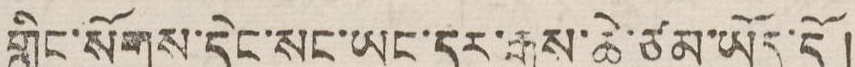གླིང་སོགས་དེང་སང་ཡང་དར་རྒྱས་ཆེ་ཙམ་ཡོད་དོ།
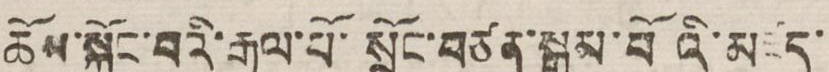ཆོས་སྐྱོང་བའི་རྒྱལ་པོ་སྲོང་བཙན་སྒམ་པོའི་མཛད་
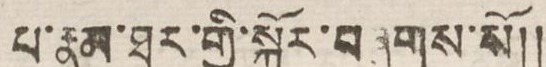པ་རྣམ་ཐར་གྱི་སྐོར་བཞུགས་སོ།།
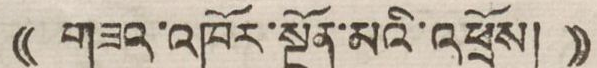(( གཟའ་འཁོར་སྔོན་མའི་འཕྲོས། ))
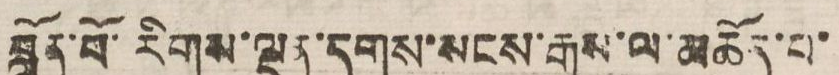བློན་པོ་རིགས་ལྡན་དགས་སངས་རྒྱས་ལ་མཆོད་པ་
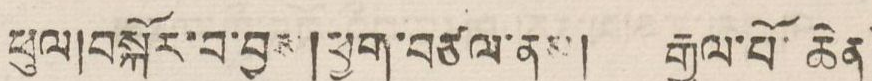ཕུལ།བསྐོར་བ་བྱས།ཕྱག་བཙལ་ནས། རྒྱལ་པོ་ཆེན་
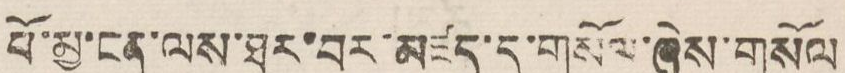པོ་མྱ་ངན་ལས་ཐར་བར་མཛད་དུ་གསོལ་ཞེས་གསོལ
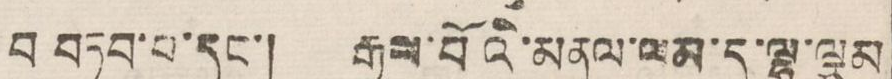བ བཏབ་བ་དང་། རྒྱལ་པོའི་མནལ་ལམ་དུ་ལྷ་ལྕམ
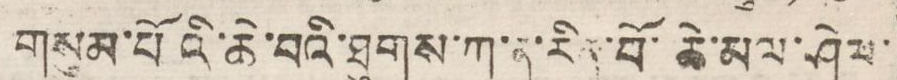གསུམ་པོའི་ཆེ་བའི་ཐུགས་ཀ་ན་རིན་པོ་ཆེ་མལ་ཤེལ་
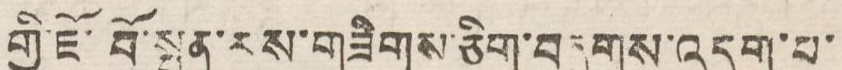གྱི་ཇོ་བོ་སྤྱན་རས་གཟིགས་ཅིག་བཞུགས་འདུག་པ་
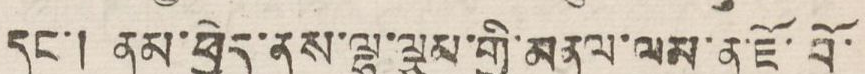དང་། ནམ་ཕྱེད་ནས་ལྷ་ལྕམ་གྱི་མནལ་ལམ་ན་ཇོ་བོ་
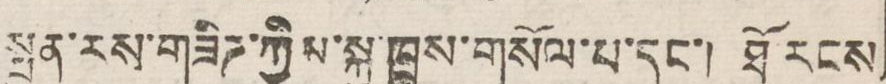སྤྱན་རས་གཟིཊ་ཀྱིས་སྐུ་ཁྲུས་གསོལ་པ་དང་། ཐོ རངས་
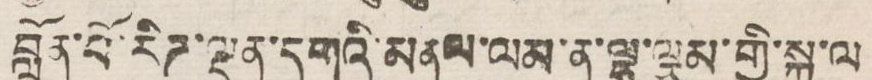བློན་པོ་རིཊ་ལྡན་དགའི་མནལ་ལམ་ལ་ལྷ་ལྕམ་གྱི་སྐུ་ལ
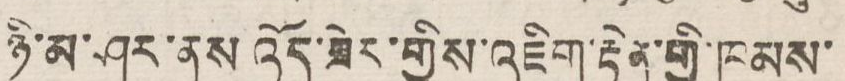ཉི་མ་ཤར་ནས་འོད་ཟེར་གྱིས་འཇིག་རྟེན་གྱི་ཁམས་
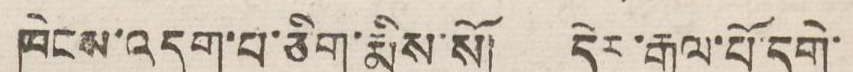ཁེངས་འདུག་པ་ཅིག་རྨིས་སོ། དེར་རྒྱལ་པོ་དགེ་
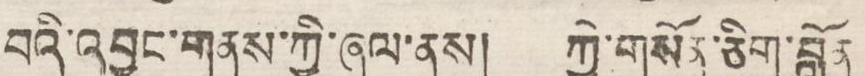བའི་འབྱུང་གནས་ཀྱི་ཞལ་ནས། ཀྱེ་གསོན་ཅིག་བློན
